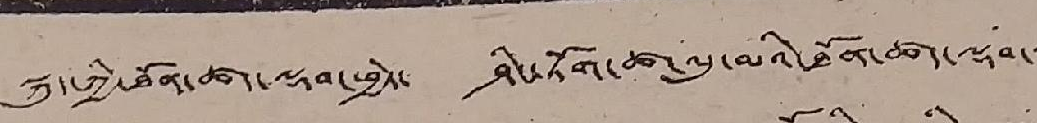སྐུད་ཀྱི་ཐོན་ཚད་ལྡབ་ཕྱེད་ ཤིང་ཏོག་ཚ་ལུ་མའི་ཐོན་ཚད་ལྡབ་་
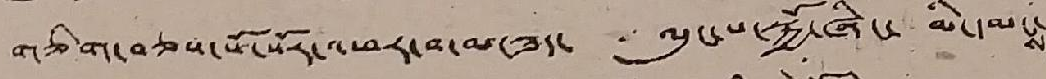གཅིག་བཅས་སོ་སོར་འཕར་བ་མ་ཟད་ ལུང་པ་སྐྱོ་ཞིང་ མི་དམངས་
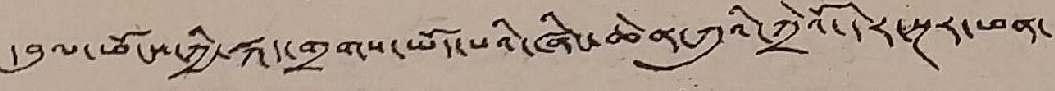དབུལ་ཕོངས་ཀྱི་སྐད་གྲགས་ཡོད་པའི་ཞིང་ཆེན་ཀུའི་ཀྲེའོ་དེར་སྔར་ཕན་
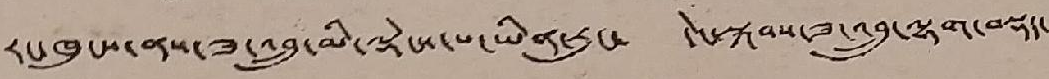རང་ཁུངས་ནས་ཟ་འབྲུ་མི་ལྡེངས་པ་ཡིན་རུང་ དེང་སྐབས་ཟ་འབྲུ་ལྷག་བསྡད་
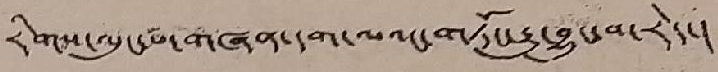རིགས་ལུང་པ་གཞན་དག་ལའང་གཏོང་རྒྱུ་བྱུང་བ་རེད་།
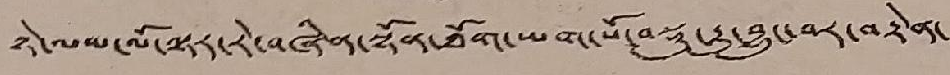ཉེ་ལམ་ལོ་ལྟར་རེ་བཞིན་སྟོན་ཐོག་ཡག་པོ་བསྡུ་རྒྱུ་བྱུང་བར་བརྟེན་
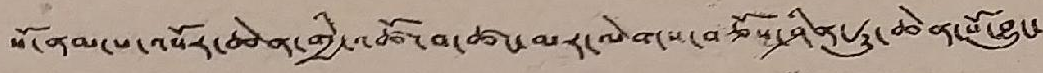སོ་ནམ་པ་འབོར་ཆེན་གྱི་འཚོ་བ་ཚང་མར་ལེགས་བཅོས་ཤིན་ཏུ་ཆེན་པོ་བྱུང་
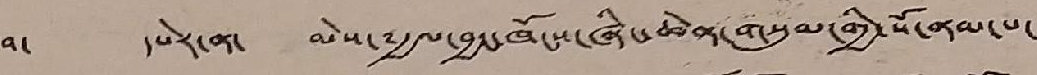བ་ དཔེར་ན་ མེས་༸རྒྱལ་བྱང་ཁོངས་ཞིང་ཆེན་གསུམ་གྱི་སོ་ནམ་པ་
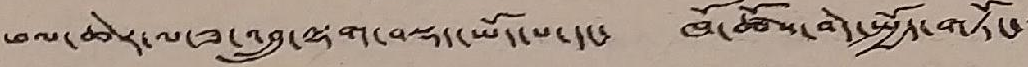ཕལ་ཆེར་ལ་ཟ་འབྲུ་ལྷག་བསྡད་ཡོད་པ་དང་ ཁོ་ཚོས་བེད་སྤྱོད་གཏོང་་་
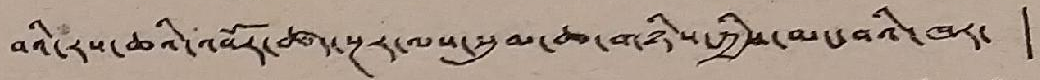བའི་རས་ཆའི་འབོར་ཚད་སྔར་ལས་སུམ་ཆ་གཉིས་ཀྱིས་མང་བའི་ཁར་ །
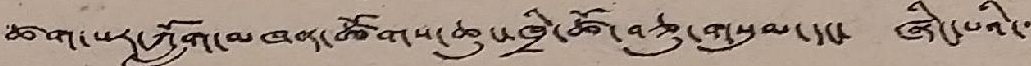ཚག་པར་ཀློག་མཁན་ཚོགས་ཆུང་ཁྲི་ཚོ་བཅུ་གསུམ་དང་ ཞིང་པའི་་
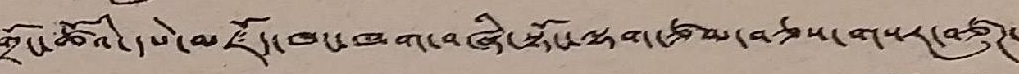གྲོང་ཚོའི་དཔེ་མཛོད་ཁང་ཁག་བཞི་སྟོང་ལྷག་ཙམ་བཅས་གསར་བཙུཊ་
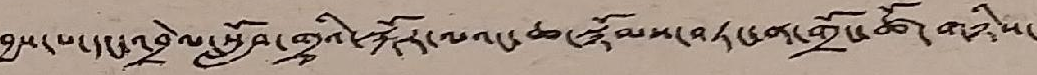བྱས་པ་དང་འབྲེལ་སློབ་གྲྭའི་སྐོར་ལའང་ཆ་སྙོམས་བཏང་ན་གྲོང་ཚོ་གཉིས་
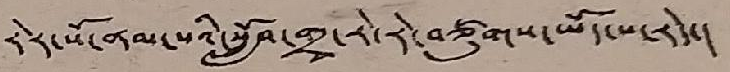རེར་སོ་ནམ་པའི་སློབ་གྲྭ་རེ་རེ་བཙུགས་ཡོད་པ་རེད་།
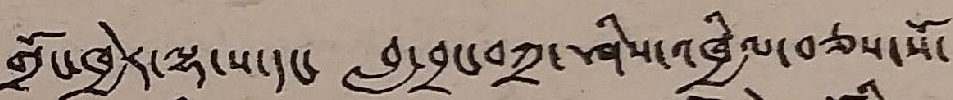གྲོང་ཁྱེར་ལྷ་ས་དང་ བླ་བྲང་བཀྲ་ཤིས་འཁྱིལ་བཅས་སོ་
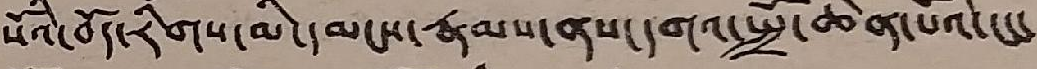སོའི་བོད་རིགས་མི་དམངས་རྣམས་ནས་དགའ་སྤྲོ་ཆེན་པོའི་ངང་
